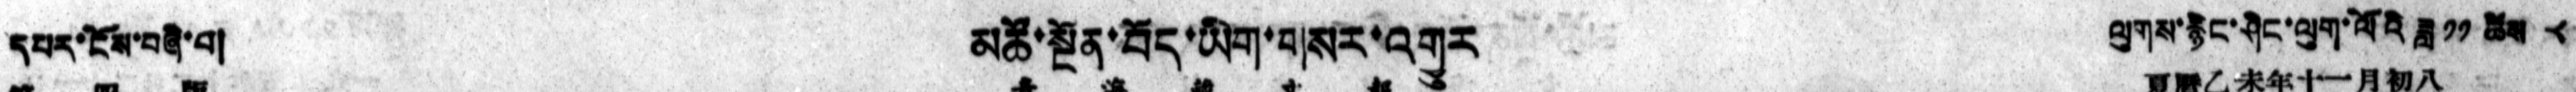དཔར་ངོས་བཞི་པ།   མཚོ་སྔོན་བོད་ཡིག་གསར་འགྱུར    ལུགས་རྙིང་ཤིང་ལུག་ལོའི་ཟླ ༡༡ ཚེས ༨
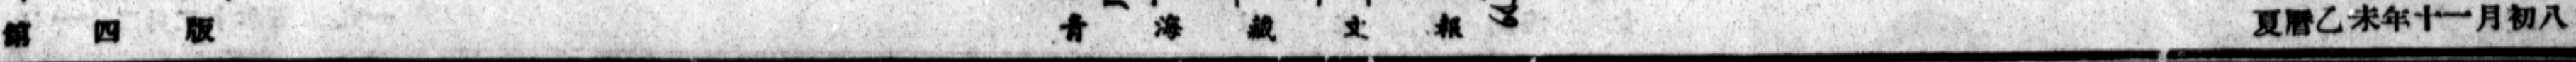第 四 版 青 海 藏 文 報 夏曆乙未年十一月初八
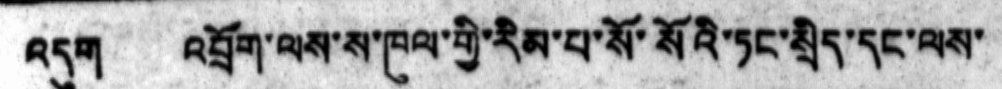འདུག འབྲོག་ལས་ས་ཁུལ་གྱི་རིམ་པ་སོ་སོའི་ཏང་སྲིད་དང་ལས་
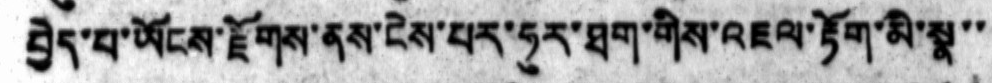བྱེད་པ་ཡོངས་རྫོགས་ནས་ངེས་པར་ཧུར་ཐག་གིས་འཇལ་རྟོག་མི་སྣ་་
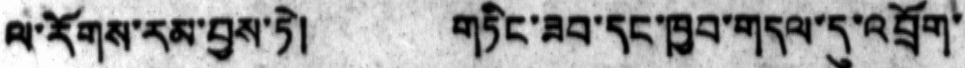ལ་རོགས་རམ་བྱས་ཏེ།  གཏིང་ཟབ་དང་ཁྱབ་གདལ་དུ་འབྲོག་
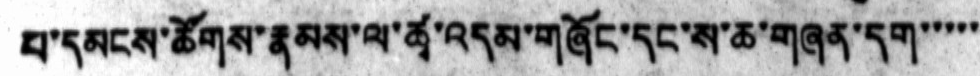པ་དམངས་ཚོགས་རྣམས་ལ་ཚྭ་འདམ་གཞོང་དང་ས་ཆ་གཞན་དག་་་་་
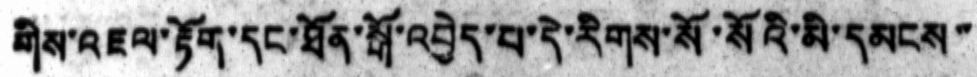གིས་འཇལ་རྟོག་དང་ཐོན་སྒོ་འབྱེད་པ་དེ་རིགས་སོ་སོའི་མི་དམངས་་
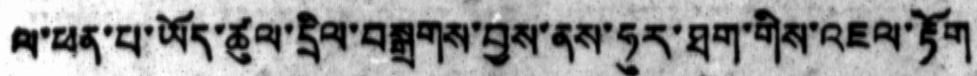ལ་ཕན་པ་ཡོད་ཚུལ་དྲིལ་བསྒྲགས་བྱས་ནས་ཧུར་ཐག་གིས་འཇལ་རྟོག
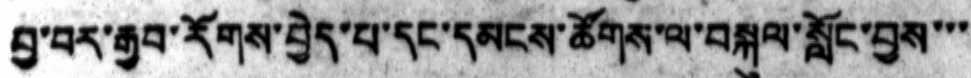བྱ་བར་རྒྱབ་རོགས་བྱེད་པ་དང་དམངས་ཚོགས་ལ་བསྐུལ་སློང་བྱས་་་
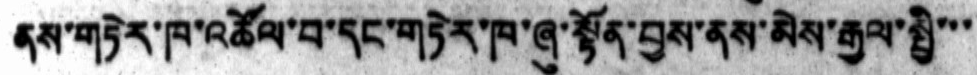ནས་གཏེར་ཁ་འཚོལ་བ་དང་གཏེར་ཁ་ཞུ་སྟོན་བྱས་ནས་མེས་རྒྱལ་སྤྱི་་་
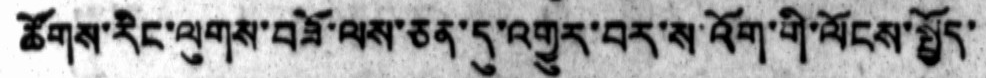ཚོགས་རིང་ལུགས་བཟོ་ལས་ཅན་དུ་འགྱུར་བར་ས་འོག་གི་ལོངས་སྤྱོད་
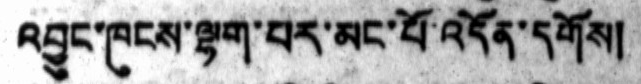འབྱུང་ཁུངས་ལྷག་པར་མང་པོ་འདོན་དགོས།
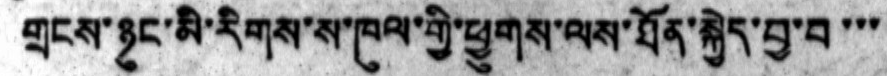གྲངས་ཉུང་མི་རིགས་ས་ཁུལ་གྱི་ཕྱུགས་ལས་ཐོན་སྐྱེད་བྱ་བ་་་
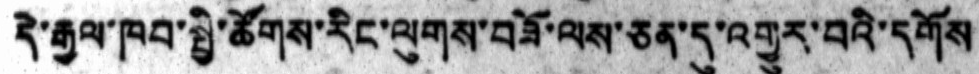དེ་རྒྱལ་ཁབ་སྤྱི་ཚོགས་རིང་ལུགས་བཟོ་ལས་ཅན་དུ་འགྱུར་བའི་དགོས
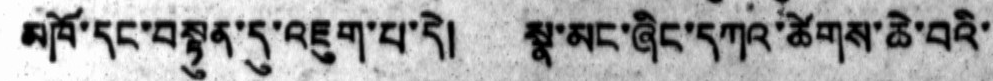མཁོ་དང་བསྟུན་དུ་འཇུག་པ་དེ། སྣ་མང་ཞིང་དཀའ་ཚེགས་ཆེ་བའི་
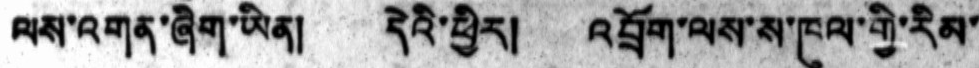ལས་འགན་ཞིག་ཡིན།   དེའི་ཕྱིར།   འབྲོག་ལས་ས་ཁུལ་གྱི་རིམ་
